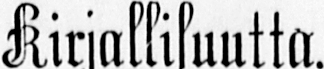Kirjallisuutta.
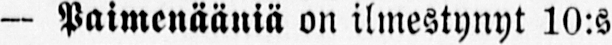— Paimenääniä on ilmestynyt 10:s
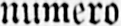numero.
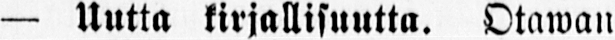— Uutta kirjallisuutta. Otawan
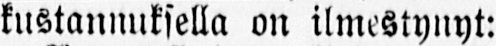kustannuksella on ilmestynyt:
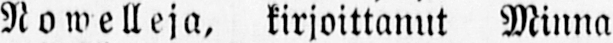Nowelleja, kirjoittanut Minna
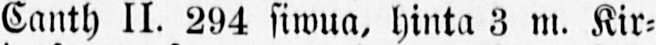Canth II. 294 siwua, hinta 3 m. Kir-
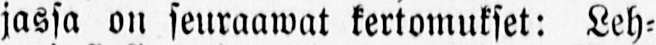jassa on seuraawat kertomukset: Leh-
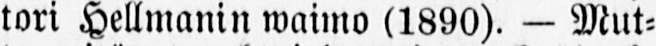tori Hellmanin waimo (1890). — Mut-
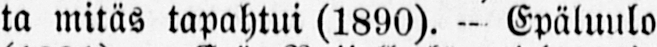ta mitäs tapahtui (1890). - Epäluulo
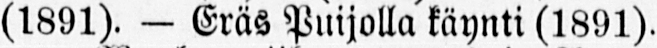(1891) — Eräs Puijolla käynti (1891).
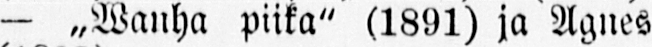— „Wanha piika" (1891) ja Agnes
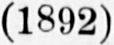(1892)
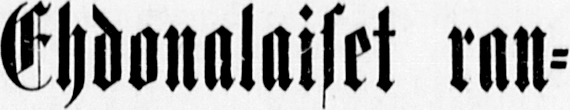Ehdonalaiset ran-
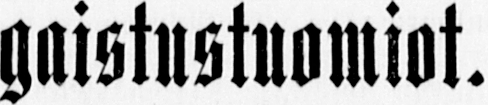gaistustuomiot.
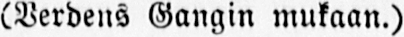(Verdens Gangin mukaan.)
